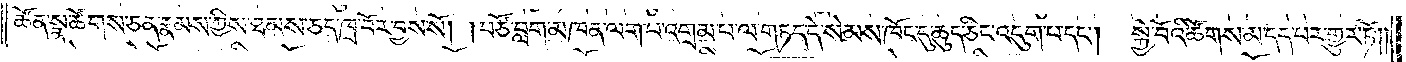ཚོན་སྣ་ཚོགས་ཅན་རྣམས་ཀྱིས་ཐམས་ཅད་ཁྲ་བོར་བྱས་སོ། །བཙོ་བླག་མཁན་ལག་པ་འགྲམ་པ་ལ་གཏད་དེ་སེམས་ཁོང་དུ་ཆུད་ཅིང་འདུག་པ་དང༌། སྐྱེ་བོའི་ཚོགས་མ་དད་པར་གྱུར་ཏོ། །
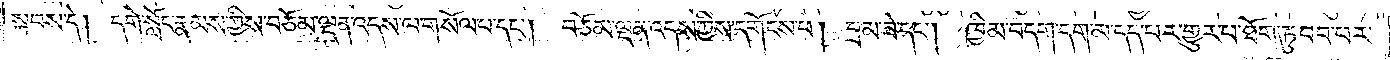སྐབས་དེ། དགེ་སློང་རྣམས་ཀྱིས་བཅོམ་ལྡན་འདས་ལ་གསོལ་པ་དང༌། བཅོམ་ལྡན་འདས་ཀྱིས་དགོངས་པ། བྲམ་ཟེ་དང༌། ཁྱིམ་བདག་དག་མ་དད་པར་གྱུར་པ་ཐོག་ཏུ་བབ་པར་
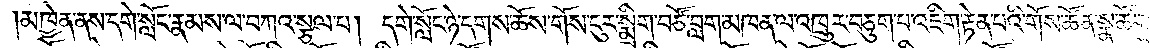མཁྱེན་ནས་དགེ་སློང་རྣམས་ལ་བཀའ་སྩལ་པ། དགེ་སློང་ཉེ་དགས་ཆོས་གོས་ངུར་སྨྲིག་བཙོ་བླག་མཁན་ལ་འཁྲུར་བཅུག་པ་འཇིག་རྟེན་པའི་གོས་ཚོན་སྣ་ཚོགས་
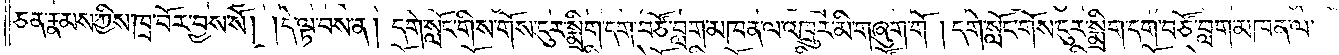ཅན་རྣམས་ཀྱིས་ཁྲ་བོར་བྱས་སོ། །དེ་ལྟ་བས་ན། དགེ་སློང་གིས་གོས་ངུར་སྨྲིག་དག་བཙོ་བླག་མཁན་ལ་འཁྲུར་མི་གཞུག་གོ །དགེ་སློང་གོས་ངུར་སྨྲིག་དག་བཙོ་བླག་མཁན་ལ་
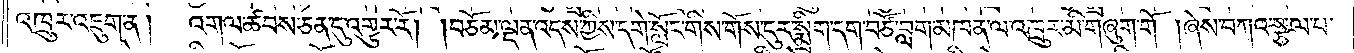འཁྲུར་འཇུག་ན། འགལ་ཚབས་ཅན་དུ་འགྱུར་རོ། །བཅོམ་ལྡན་འདས་ཀྱིས་དགེ་སློང་གིས་གོས་ངུར་སྨྲིག་དག་བཙོ་བླག་མཁན་ལ་འཁྲུར་མི་གཞུག་གོ །ཞེས་བཀའ་སྩལ་པ་
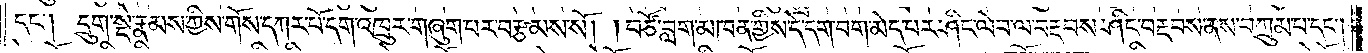དང༌། དྲུག་སྡེ་རྣམས་ཀྱིས་གོས་དཀར་པོ་དག་འཁྲུར་གཞུག་པར་བརྩམས་སོ། །བཙོ་བླག་མཁན་གྱིས་དེ་དག་བག་མེད་པར་ཤིང་ལེབ་ལ་བརྡབས་ཤིང་བརྡབས་ནས་བཀྲུམ་པ་དང༌།
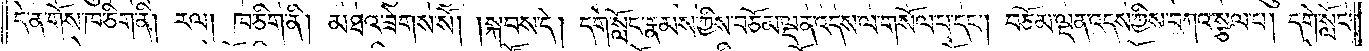དེ་ན་གོས་ཁ་ཅིག་ནི། རལ། ཁ་ཅིག་ནི། མཐའ་ཟེགས་སོ། །སྐབས་དེ། དགེ་སློང་རྣམས་ཀྱིས་བཅོམ་ལྡན་འདས་ལ་གསོལ་པ་དང༌། བཅོམ་ལྡན་འདས་ཀྱིས་བཀའ་སྩལ་པ། དགེ་སློང་
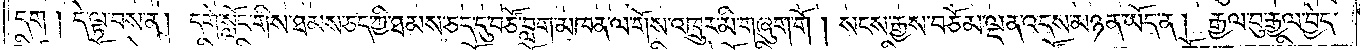དག །དེ་ལྟ་བས་ན། དགེ་སློང་གིས་ཐམས་ཅད་ཀྱི་ཐམས་ཅད་དུ་བཙོ་བླག་མཁན་ལ་གོས་འཁྲུར་མི་གཞུག་གོ །སངས་རྒྱས་བཅོམ་ལྡན་འདས་མཉན་ཡོད་ན། རྒྱལ་བུ་རྒྱལ་བྱེད་
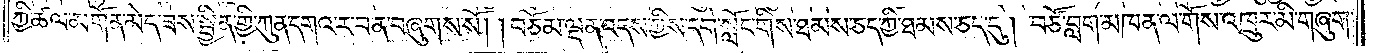ཀྱི་ཚལ་མགོན་མེད་ཟས་སྦྱིན་གྱི་ཀུན་དགའ་ར་བ་ན་བཞུགས་སོ། །བཅོམ་ལྡན་འདས་ཀྱིས་དགེ་སློང་གིས་ཐམས་ཅད་ཀྱི་ཐམས་ཅད་དུ། བཙོ་བླག་མཁན་ལ་གོས་འཁྲུར་མི་གཞུག་
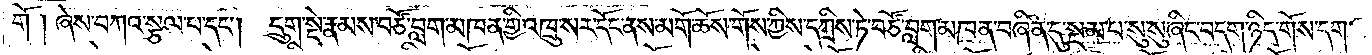གོ །ཞེས་བཀའ་སྩལ་པ་དང༌། དྲུག་སྡེ་རྣམས་བཙོ་བླག་མཁན་གྱི་འཁྲུ་སར་དོང་ནས་མགོ་ཆོས་གོས་ཀྱིས་དཀྲིས་ཏེ་བཙོ་བླག་མཁན་བཞིན་དུ་སྔ་མ་པ་སུ་སུ་ཞིང་བདག་ཉིད་གོས་དག་
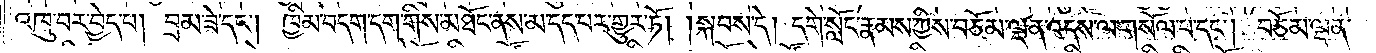འཁྲུ་བར་བྱེད་པ། བྲམ་ཟེ་དང༌། ཁྱིམ་བདག་དག་གིས་མཐོང་ནས་མ་དད་པར་གྱུར་ཏོ། །སྐབས་དེ། དགེ་སློང་རྣམས་ཀྱིས་བཅོམ་ལྡན་འདས་ལ་གསོལ་པ་དང༌། བཅོམ་ལྡན་
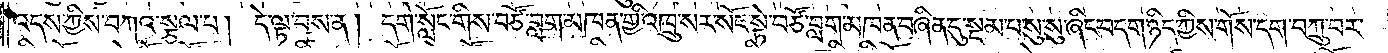འདས་ཀྱིས་བཀའ་སྩལ་པ། དེ་ལྟ་བས་ན། དགེ་སློང་གིས་བཙོ་བླག་མཁན་གྱི་འཁྲུ་སར་སོང་སྟེ་བཙོ་བླག་མཁན་བཞིན་དུ་སྔ་མ་པ་སུ་སུ་ཞིང་བདག་ཉིད་ཀྱིས་གོས་དག་བཀྲུ་བར་
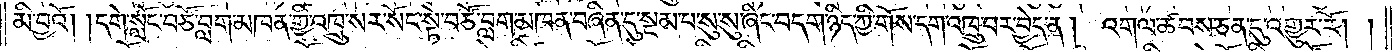མི་བྱའོ། །དགེ་སློང་བཙོ་བླག་མཁན་གྱི་འཁྲུ་སར་སོང་སྟེ་བཙོ་བླག་མཁན་བཞིན་དུ་སྔ་མ་པ་སུ་ཞིང་བདག་ཉིད་ཀྱི་གོས་དག་འཁྲུ་བར་བྱེད་ན། འགལ་ཚབས་ཅན་དུ་འགྱུར་རོ། །
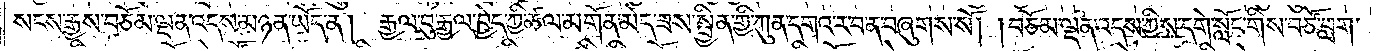སངས་རྒྱས་བཅོམ་ལྡན་འདས་མཉན་ཡོད་ན། རྒྱལ་བུ་རྒྱལ་བྱེད་ཀྱི་ཚལ་མགོན་མེད་ཟས་སྦྱིན་གྱི་ཀུན་དགའ་ར་བ་ན་བཞུགས་སོ། །བཅོམ་ལྡན་འདས་ཀྱིས་དགེ་སློང་གིས་བཙོ་བླག་
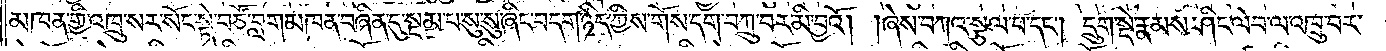མཁན་གྱི་འཁྲུ་སར་སོང་སྟེ་བཙོ་བླག་མཁན་བཞིན་དུ་སྔ་མ་པ་སུ་སུ་ཞིང་བདག་ཉིད་ཀྱིས་གོས་དག་བཀྲུ་བར་མི་བྱའོ། །ཞེས་བཀའ་སྩལ་པ་དང༌། དྲུག་སྡེ་རྣམས་ཤིང་ལེབ་ལ་འཁྲུ་བར་
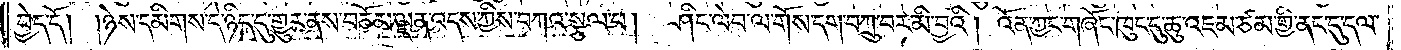བྱེད་དོ། །ཉེས་དམིགས་དེ་ཉིད་དུ་གྱུར་ནས་བཅོམ་ལྡན་འདས་ཀྱིས་བཀའ་སྩལ་པ། ཤིང་ལེབ་ལ་གོས་དག་བཀྲུ་བར་མི་བྱའོ། །འོན་ཀྱང་གཞོང་ཁུང་དུ་ཆུ་འཇམ་ཙམ་གྱི་ནང་དུ་དལ་
